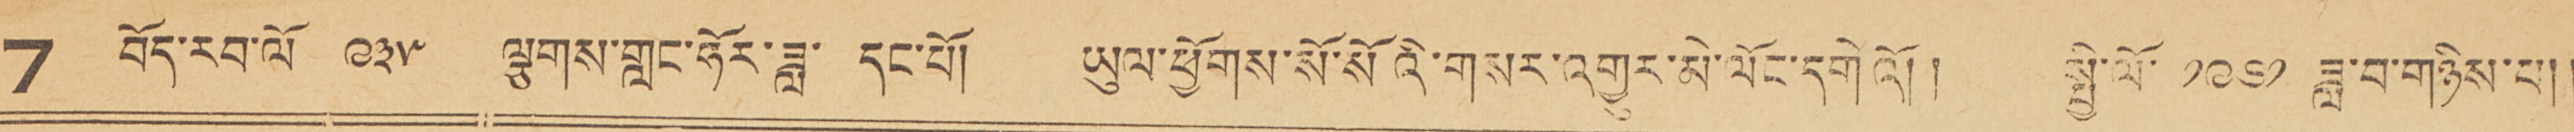7 བོད་རབ་ལོ་ ༩༣༥ ལྕགས་གླང་ཧོར་ཟླ་ དང་པོ། ཡུལ་ཕྱོགས་སོ་སོའི་གསར་འགྱུར་མེ་ལོང་དགེའོ།། སྤྱི་ལོ་ ༡༩༦༢ ཟླ་བ་གཉིས་པ།
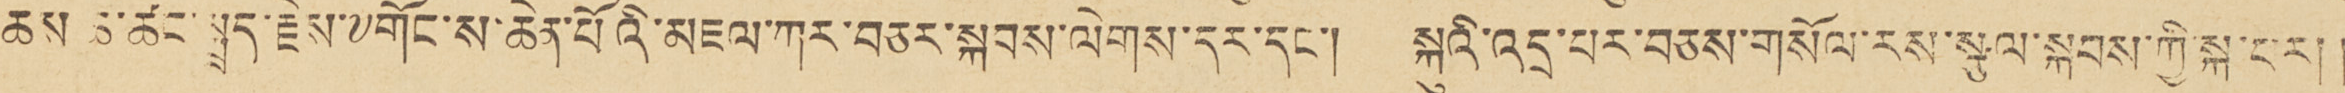ཆས་ཆ་ཚང་སྤྲད་རྗེས་༸གོང་ས་ཆེན་པོའི་མཇལ་ཀར་བཅར་སྐབས་ལེགས་དར་དང་། སྐུའི་འདྲ་པར་བཅས་གསོལ་རས་སྩལ་སྐབས་ཀྱི་སྐ་པར།།
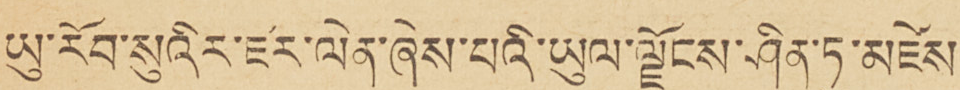ཡུ་རོབ་སུའིར་ཛར་ལེན་ཞེས་པའི་ཡུལ་སྗོངས་ཤིན་ཏུ་མཛེས་
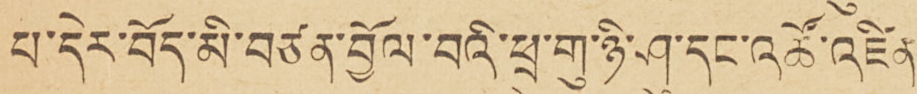པ་དེར་བོད་མི་བཙན་བྱོལ་བའི་ཕྲུ་གུ་ཉི་ཤུ་དང་འཚོ་འཛིན་
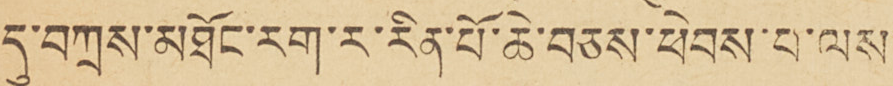དུ་བཀྲས་མཐོང་རག་ར་རིན་པོ་ཆེ་བཅས་ཕེབས་པ་ལས་
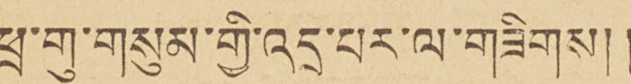ཕྲུ་གུ་གསུམ་གྱི་འདྲ་པར་ལ་གཟིགས།།
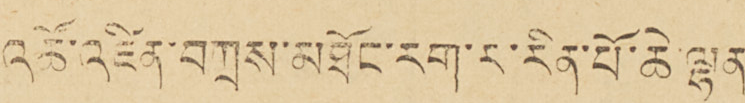འཚོ་འཛིན་བཀྲས་མཐོང་རག་ར་རིན་པོ་ཆེ་ལྷན་
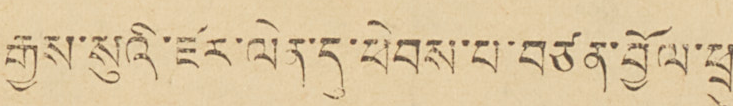རྒྱས་སུའི་ཛར་ལེན་དུ་ཕེབས་པ་བཙན་བྱོལ་ཕྲུ་
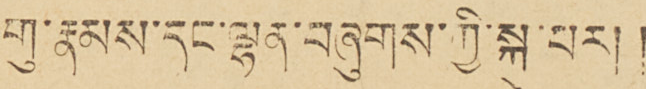གུ་རྣམས་དང་ལྷན་བཞུགས་ཀྱི་སྐུ་བར།།
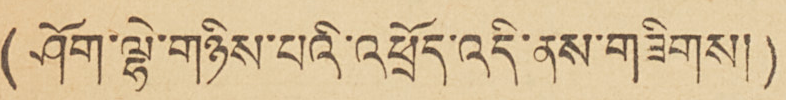(ཤོག་ལྷེ་གཉིས་པའི་འཕྲོད་འདི་ནས་གཟིགས།)
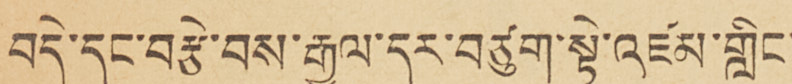བདེ་དང་བརྩེ་བས་རྒྱལ་དར་བཙུན་སྟེ་འཛམ་གླིང་
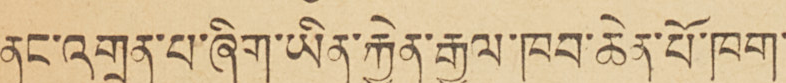ནང་འགྲན་པ་ཞིག་ཡིན་རྐྱེན་རྒྱལ་ཁབ་ཆེན་པོ་ཁག་
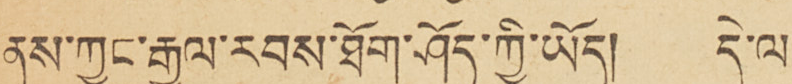ནས་ཀྱང་རྒྱལ་རབས་ཐོག་ཤོད་ཀྱི་ཡོད། དེ་ལ་
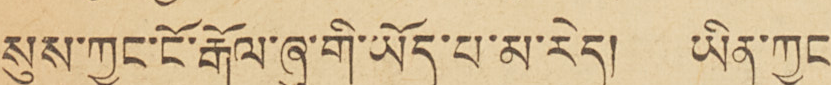སུས་ཀྱང་ངོ་རྒོལ་ཞུ་གི་ཡོད་པ་མ་རེད། ཡིན་ཀྱང་
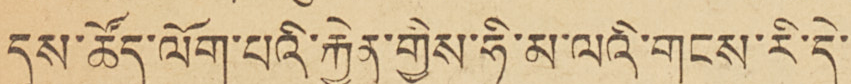དུས་ཚོད་ལོག་པའི་རྐྱེན་གྱིས་ཧི་མ་ལའི་གངས་རི་དེ་
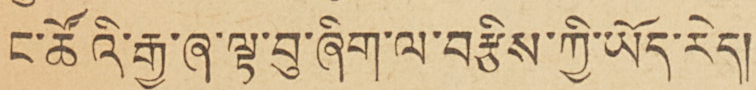ང་ཚོའི་རྒྱ་ཞྭ་ལྟ་བུ་ཞིག་ལ་བརྩིས་ཀྱི་ཡོད་རེད།
